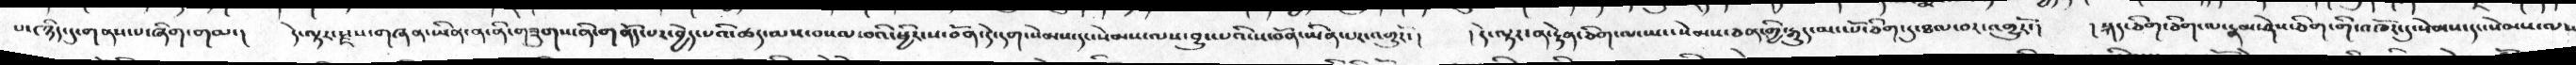པ་༤་ཉིད་དུ་གནས་པ་ཞིག་གམ་།   དེ་ལྟར་རྫས་གཞན་ཡིན་ན་ནི་གཟུགས་ནི་གནོད་པར་བྱེད་པའི་ཚད་མས་བསལ་བའི་ཕྱིར་ས་བོན་དེ་དག་སེམས་དང་སེམས་ལས་བྱུང་པའི་ས་བོན་ཡིན་པར་འགྱུརོ་།    །དེ་ལྟར་ན་རྟེན་ཅིག་ལ་ཡང་སེམས་ཅན་གྱི་རྒྱུད་མང་པོ་ཅིག་དུ་ཐལ་བར་འགྱུརོ་།   །སྐད་ཅིག་ཅིག་ལ་རྣམ་ཤེས་ཅིག་གི་འཁོར་དུ་སེམས་དང་སེམས་ལས
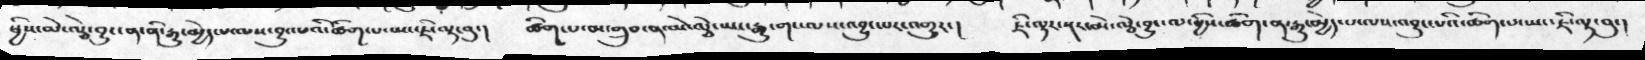ཕྱིས་མེ་ལྕེ་བྱུང་ན་ནི་རྒྱུ་མྱེད་པ་ལས་བྱུང་པའི་ཚིག་པ་ཡང་ཇི་ལྟ་བུ་།   ཚིག་པ་མ་གྲུབ་ན་མེ་ལྕེ་ཡང་རྒྱུ་གང་ལས་འབྱུང་པར་འགྱུར་།   ཇི་ལྟར་སྔར་མེ་ལྕེ་བྱུང་ལ་ཕྱིས་ཚིག་ན་རྒྱུ་མྱེད་པ་ལས་འབྱུང་པའི་ཚིག་པ་ཡང་ཇི་ལྟ་བུ་།
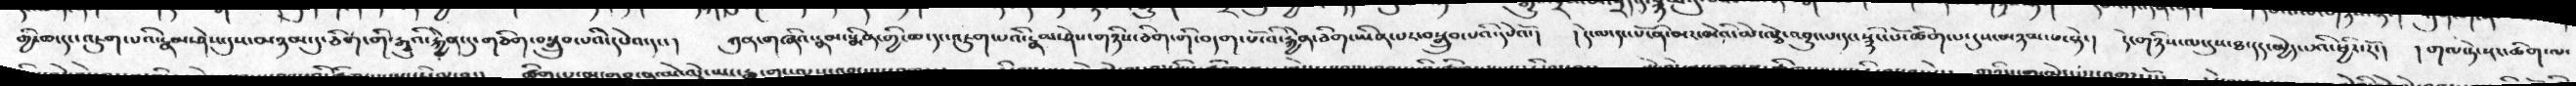གྱི་ཆ་དང་འཇུག་པའི་རྣམ་ཤེས་དུས་མཉམ་དུ་ཅིག་གི་རྒྱུའི་རྐྱེན་དུ་གཅིག་བསྒྲུབ་པའི་དཔེའ་དང་།  ཀུན་གཞིའ་རྣམ་སྨིན་གྱི་ཆ་དང་འཇུག་པའི་རྣམ་ཤེས་གཉིས་ཅིག་གི་བདག་པོ་འི་རྐྱེན་ཅིག་ཡིན་པར་བསྒྲུབ་པའི་དཔེའོ་།    །དེ་ལ་དང་པོ་ནི་མར་མེའི་མེ་ལྕེ་འབྱུང་པ་དང་སྙིང་པོ་ཚིག་པ་དུས་མཉམ་པ་སྟེ་།   དེ་གཉིས་ལ་དུས་ཐ་དད་མྱེད་པའི་ཕྱིར་རོ་།    །གལ་ཏེ་སྔར་ཚིག་ལ་
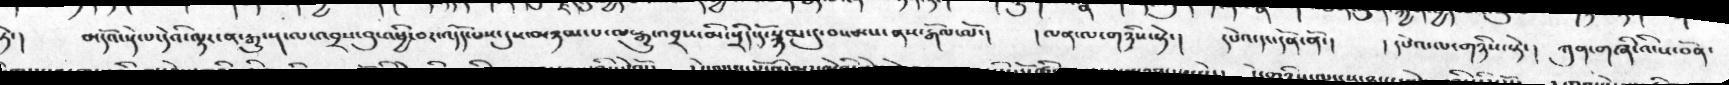ཏེ་།    མདོའ་སྡེ་པ་དེའི་ལྟར་ན་རྒྱུ་སྔ་ལ་འབྲས་བུ་འཕྱི་བར་འདོད་པས་དུས་མཉམ་པ་ལ་རྒྱུ་འབྲས་མི་སྲིད་དོ་སྙམ་དུ་བསམས་ནས་རྒོལ་ལོ་།   །ལན་ལ་གཉིས་སྟེ་།   དཔེའ་དང་དོན་ནོ་།    །དཔེའ་ལ་གཉིས་སྟེ་།  ཀུན་གཞི་འི་ས་བོན་
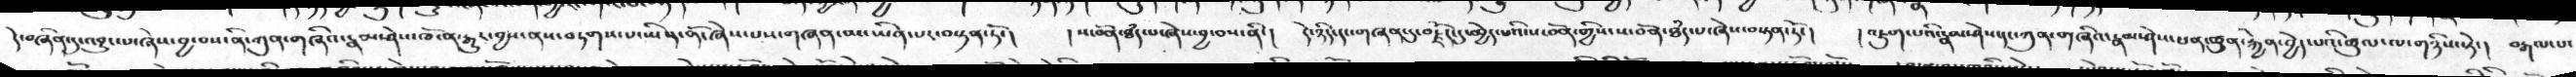དེ་བཞིན་དུ་འབྱུང་པ་ཞེས་བྱ་བས་ནི་ཀུན་གཞིའ་རྣམ་ཤེས་ཁོ་ན་རྒྱུར་བྱས་ནས་བཏགས་པ་ཡིན་ནོ་ཞེས་པས་གཞན་མ་ཡིན་པར་བསྟན་ཏོ་།   །ས་བོན་ཐཾད་པ་ཞེས་བྱ་བས་ནི་།   དེ་ཉིད་དང་གཞན་དུ་བརྗོད་དུ་མྱེད་པའི་ས་བོན་གྱིས་ས་བོན་ཐཾད་པ་ཞེས་བསྟན་ཏོ་།    །འཇུག་པའི་རྣམ་ཤེས་དང་ཀུན་གཞིའ་རྣམ་ཤེས་ཕན་ཚུན་རྐྱེན་བྱེད་པའི་ཚུལ་ལ་གཉིས་ཏེ་།   བརྒལ་པ་
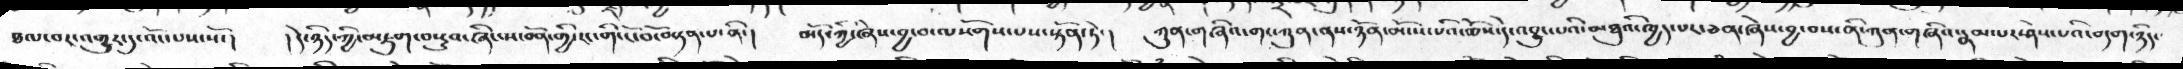ཐལ་བར་འགྱུར་དུ་འོང་པས་སོ་།    །དེ་ཉིད་ཀྱི་་མཇུག་བསྡུའ་ཞིང་ས་བོན་གྱི་རང་གི་ངོ་བོ་བསྟན་པ་ནི་།   མདོ་ཀྱི་ཞེས་བྱ་བ་ལསོགས་པས་སྟོན་ཏེ་།   ཀུན་གཞིའ་གང་ཀུན་ནས་ཉོན་མོངས་པའི་ཆོས་དེ་འབྱུང་པའི་མཐུའི་ཁྱད་པར་ཅན་ཞེས་བྱ་བས་ནི་ཀུན་གཞིའ་རྣམ་པར་ཤེས་པའི་བདག་ཉིད་
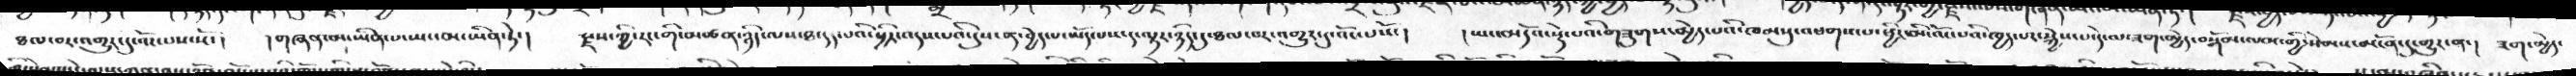ཐལ་བར་འགྱུར་དུ་འོང་པས་སོ་།   །གཞན་མ་ཡིན་པ་ཡང་མ་ཡིན་ཏེ་།   རྫས་ཀྱི་རང་གི་མཚན་ཉིད་ལས་ཐ་དད་པའི་ཕྱིར་འདས་པའི་དུས་ན་བྱེད་པ་ཡོད་པས་ད་ལྟར་ཉིད་དུ་ཐལ་བར་འགྱུར་དུ་འོང་པསོ་།    །ཡང་མདོའ་སྡེ་པའི་གཟུགས་མྱེད་པའི་ཁམསུ་འཕགས་པ་ཕྱིར་མི་འོང་པའི་ཁྱད་པར་སྐྱེས་པ་དེ་ལ་ཟག་མྱེད་བསྒོམ་ལམ་གྱི་སེམས་མངོན་དུ་གྱུར་ན་།   ཟག་མྱེད་
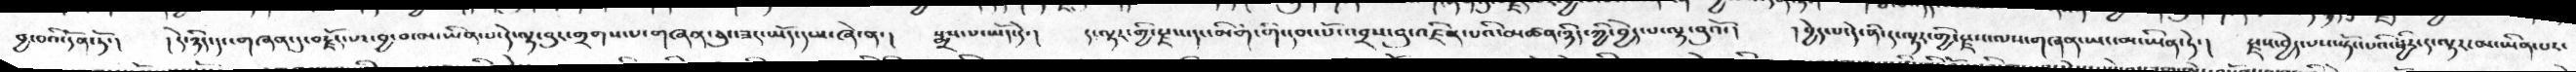བྱ་བའི་དོན་ཏོ་།   །དེ་ཉིད་དང་གཞན་དུ་བརྗོད་པར་བྱ་བ་མ་ཡིན་པ་དེ་ལྟ་བུར་གྲགས་པ་གཞན་ཅུང་ཟད་ཡོད་དམ་ཞེ་ན་།    སྨྲས་པ་ཡོད་དེ་།   ད་ལྟར་གྱི་རྫས་དང་མིག་གི་དབང་པོ་འབྲས་བུ་འཛིན་པའི་མཚན་ཉིད་ཀྱི་བྱེད་པ་ལྟ་བུའོ་།    །བྱེད་པ་དེ་ནི་ད་ལྟར་གྱི་རྫས་ལས་གཞན་ཡང་མ་ཡིན་ཏེ་།    རྫས་བྱེད་པས་སྟོང་པའི་ཕྱིར་ད་ལྟར་མ་ཡིན་པར་
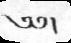༄༅།
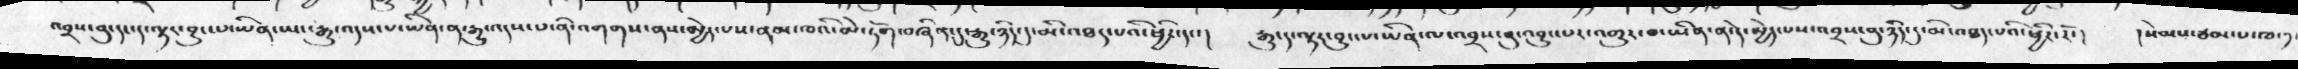འབྲས་བུ་དང་ད་ལྟར་བྱུང་པ་ཡིན་ཡང་རྒྱུ་འདས་པ་ཡིན་ན་རྒྱུ་འདས་པ་ནི་འགགས་ནས་མྱེད་པས་ནམ་ཁའི་མེ་ཏོག་བཞིན་དུ་རྒྱུ་ཉིད་དུ་མི་འཐད་པའི་ཕྱིར་དང་།    རྒྱུ་ད་ལྟར་བྱུང་པ་ཡིན་ལ་འབྲས་བུ་འབྱུང་པར་འགྱུར་བ་ཡིན་ན་དེ་མྱེད་པས་འབྲས་བུ་ཉིད་དུ་མི་འཐད་པའི་ཕྱིར་རོ་།    །སེམས་ཙམ་པ་ཁ་༡
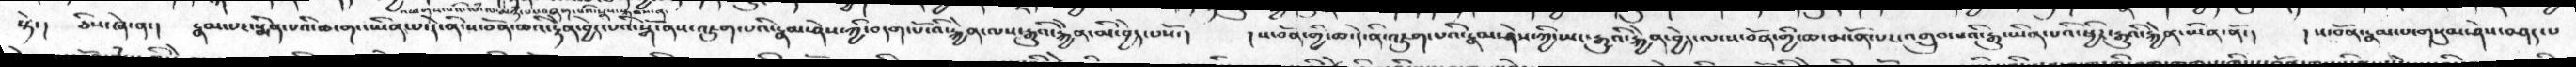སྟེ་།   ཅིས་ཞེ་ན་།   རྣམ་པར་སྨིན་པའི་ཆ་གང་ཡིན་པ་དེ་ནི་ས་བོན་ཆའི་རྟེན་བྱེད་པའི་སྒོ་ནས་འཇུག་པའི་རྣམ་ཤེས་ཀྱི་བདག་པོ་འི་རྐྱེན་ལས་རྒྱུའི་རྐྱེན་མི་བྱེད་པསོ་།    །ས་བོན་གྱི་ཆ་དེ་ནི་འཇུག་པའི་རྣམ་ཤེས་ཀྱི་ཡང་རྒྱུའི་རྐྱེན་བྱེད་ལ་ས་བོན་གྱི་ཆ་མངོན་པར་འགྲུབ་པའི་རྒྱུ་ཡིན་པའི་ཕྱིར་རྒྱུའི་རྐྱེན་ཡིན་ནོ་།   །ས་བོན་རྣམ་པ་གསུམ་ཤེས་བཤད་པ
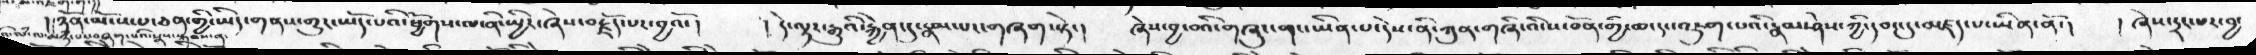ཉོན་མོངས་པ་ཅན་གྱི་ཡིད་གནས་གྱུར་ཡོད་པའི་ཕྱོགས་ལ་ནི་སྤྱིར་ཞེས་བརྗོད་པར་བྱའོ་།     །དེ་ལྟར་རྒྱུའི་རྐྱེན་དུ་རྣམ་པར་གཞག་སྟེ་།   ཞེས་བྱ་བའི་གཞུང་གང་ཡིན་པ་དེས་ནི་ཀུན་གཞི་འི་ས་བོན་གྱི་ཆ་དང་འཇུག་པའི་རྣམ་ཤེས་ཀྱི་དབང་དུ་མཛད་པ་ཡིན་ནོ་།    ། ཞེས་དྲང་པར་བྱ་
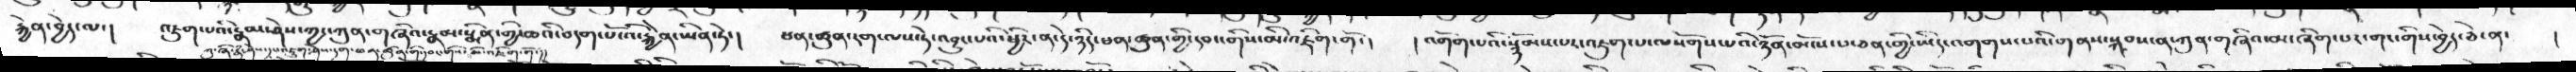རྐྱེན་བྱེད་ལ་།    འཇུག་པའི་རྣམ་ཤེས་ཀྱང་ཀུན་གཞིའ་རྣམ་སྨིན་གྱི་ཆའི་བདག་པོ་འི་རྐྱེན་ཡིན་ཏེ་།   ཕན་ཚུན་རག་ལས་ཏེ་འབྱུང་པའི་ཕྱིར་ན་དེ་ཉིད་ཕན་ཚུན་གྱི་དབང་གིས་མི་འཇིག་གོ་།    །འགོག་པའི་སྙོམས་པར་འཇུག་པ་ལསོགས་པའི་ཉོན་མོངས་པ་ཅན་གྱི་ཡིད་འགགས་པའི་གནས་སྐབས་ན་ཀུན་གཞིའ་མ་ཞིག་པར་གང་གིས་བྱེད་ཅེ་ན་    །
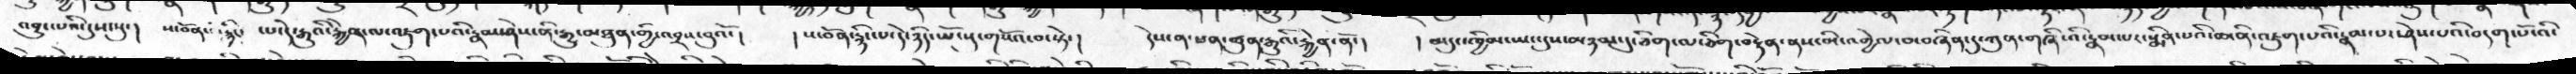འབྱུང་པའི་དུས་སུ་།   ས་བོན་ རྙིང་ པ་དེ་རྒྱུའི་རྐྱེན་ལ་འཇུག་པའི་རྣམ་ཤེས་ནི་རྒྱུ་མཐུན་གྱི་འབྲས་བུའོ་།   །ས་བོན་རྙིང་པ་དེ་ཉིད་ཡོངསུ་གསོའ་བ་སྟེ་།   དེས་ན་ཕན་ཚུན་རྒྱུའི་རྐྱེན་ནོ་།   །མདུང་ཁྱིམ་ཡང་དུས་མཉམ་དུ་ཅིག་ལ་ཅིག་བརྟེན་ནས་མི་འགྱེལ་བ་བཞིན་དུ་ཀུན་གཞི་འི་རྣམ་པར་སྨིན་པའི་ཆ་ནི་འཇུག་པའི་རྣམ་པར་ཤེས་པའི་བདག་པོ་འི་
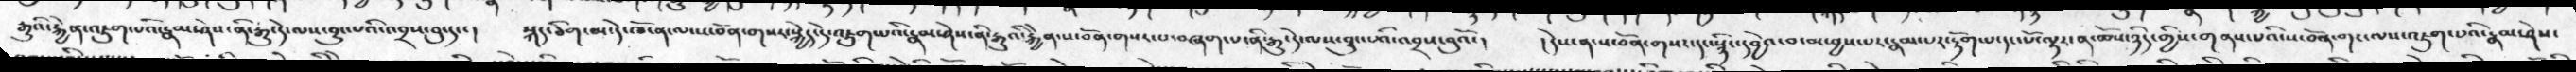རྒྱུའི་རྐྱེན་འཇུག་པའི་རྣམ་ཤེས་ནི་རྒྱུ་དེ་ལས་བྱུང་པའི་འབྲས་བུ་དང་།    སྐད་ཅིག་མ་དེ་ཁོ་ན་ལ་ས་བོན་གསར་སྐྱེད་དེ་འཇུག་པའི་རྣམ་ཤེས་ནི་རྒྱུའི་རྐྱེན་ས་བོན་གསར་པ་བཞག་པ་ནི་རྒྱུ་དེ་ལས་བྱུང་པའི་འབྲས་བུའོ་།   །དེས་ན་ས་བོན་གསར་དང་རྙིང་དབྱེའ་བ་མ་བྱས་པརརྣམ་པར་རྟོག་པ་དང་པོ་ལྟར་ན་ཆོས་ཉིད་གྱིས་གནས་པའི་ས་བོན་གང་ལས་འཇུག་པའི་རྣམ་ཤེས་
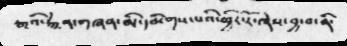རྒྱུའི་རྐྱེན་གཞན་མི་དམིགས་པའི་ཕྱིར་རོ་ཞེས་བྱ་བ་ནི་
